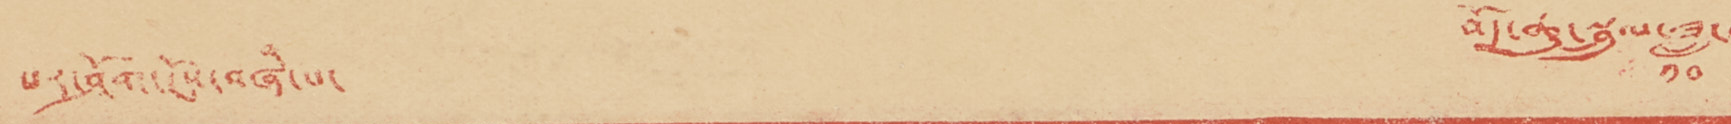པར་ཤོག་ངོས་བཞི་པ་ བོད་ཆུ་སྦྲུལ་ཟླ་
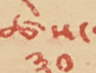ཚེས་
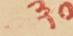༣༠
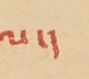ལ་།
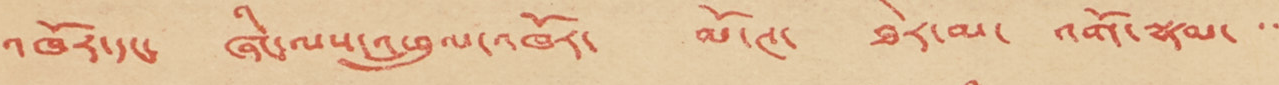འཁོར་དང་ ཞིང་ལས་འཕྲུལ་འཁོར་ མོ་ཊ་ ཐེར་མ་ འགོ་སྣམ་་་
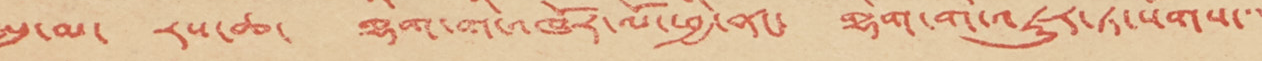སྤུ་མ་ རས་ཆ་ གྷིག་གི་འཁོར་ལོ་ཕྱི་ནང་ གྷིག་གི་འཇུར་ཏ་སོགས་་་
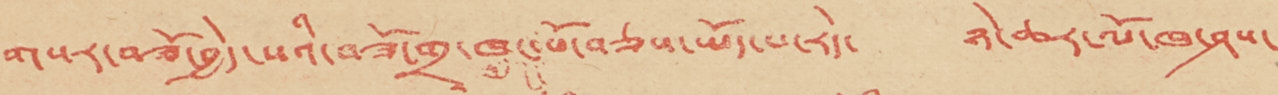གསར་བཟོ་བྱེད་པའི་བཟོ་གྲྭ་ཁང་པོ་བཅས་ཡོད་པ་རེད་ ཉེ་ཆར་ལོ་ཁ་ཤས་
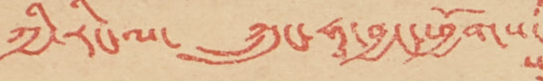ཀྱི་རིང་ལ་ ཀྲུང་ཧྭ་བྱང་ཕྱོགས་
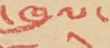ས་ཁུལ་
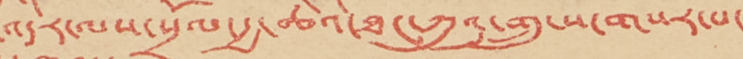འདིར་ལས་སྲོལ་རྒྱ་ཆེའི་ཐང་ཀུའུ་གྲུ་ས་གསར་པ་
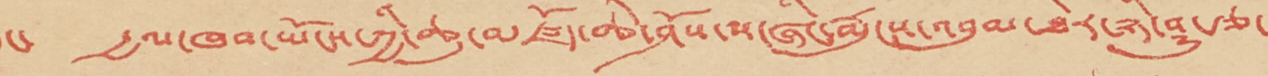དང་ རྒྱལ་ཁབ་ཡོངས་ཀྱི་ཆུ་མཛོད་ཆེ་ཤོས་ས་ཞིང་རྨུངས་འབུམ་ཐེར་ཉི་ཤུ་རྩ་
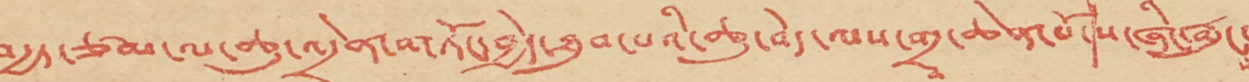བརྒྱད་ཙམ་ལ་ཆུ་འདྲེན་གཏོང་བྱེད་ཐུབ་པའི་ཆུ་བེད་ལས་གྲྭ་ཆེན་པོ་།ས་ཞིང་རྨུང་
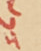ས
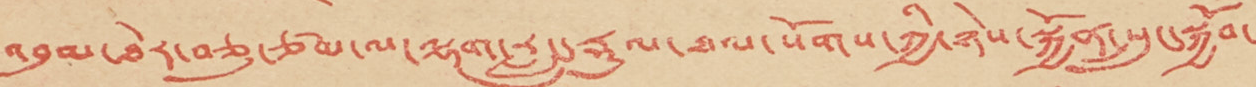འབུམ་ཐེར་བཅུ་ཙམ་ལ་ལྷག་རླུང་རྡུལ་ཐལ་སོགས་ཀྱི་ཉེས་སྐྱོན་སྲུང་སྐྱོབ་
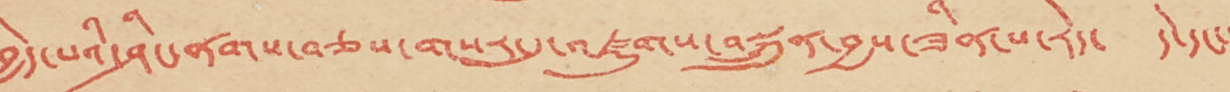བྱེད་པའི་ཤིང་ནགས་བཅས་གསར་དུ་འཛུགས་བསྐྲུན་བྱས་ཟིན་པ་རེད་ དེ་དང་་་
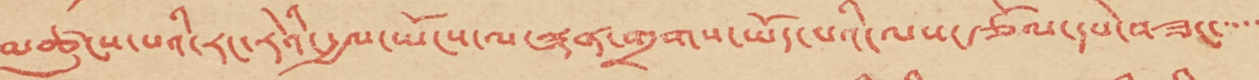མཚུངས་པའི་རང་རེའི་རྒྱལ་ཡོངས་ལ་སྙན་གྲགས་ཡོད་པའི་ལས་རྩོལ་དཔེ་བཟང་་་་་
